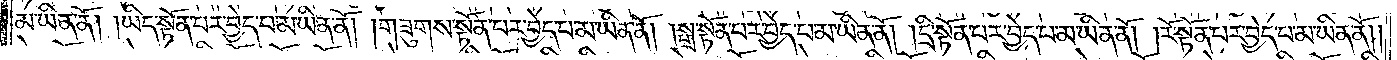མ་ཡིན་ནོ། །ཡིད་སྟོན་པར་བྱེད་པ་མ་ཡིན་ནོ། །གཟུགས་སྟོན་པར་བྱེད་པ་མ་ཡིན་ནོ། །སྒྲ་སྟོན་པར་བྱེད་པ་མ་ཡིན་ནོ། །དྲི་སྟོན་པར་བྱེད་པ་མ་ཡིན་ནོ། །རོ་སྟོན་པར་བྱེད་པ་མ་ཡིན་ནོ། །
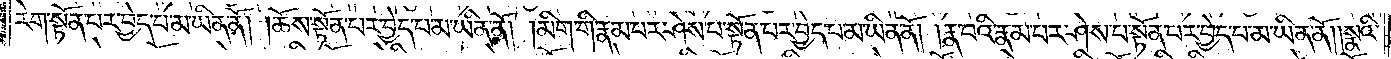རེག་སྟོན་པར་བྱེད་པ་མ་ཡིན་ནོ། །ཆོས་སྟོན་པར་བྱེད་པ་མ་ཡིན་ནོ། །མིག་གི་རྣམ་པར་ཤེས་པ་སྟོན་པར་བྱེད་པ་མ་ཡིན་ནོ། །རྣ་བའི་རྣམ་པར་ཤེས་པ་སྟོན་པར་བྱེད་པ་མ་ཡིན་ནོ། །སྣའི་
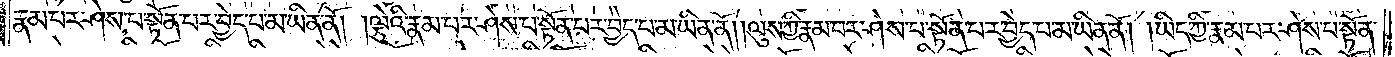རྣམ་པར་ཤེས་པ་སྟོན་པར་བྱེད་པ་མ་ཡིན་ནོ། །ལྕེའི་རྣམ་པར་ཤེས་པ་སྟོན་པར་བྱེད་པ་མ་ཡིན་ནོ། །ལུས་ཀྱི་རྣམ་པར་ཤེས་པ་སྟོན་པར་བྱེད་པ་མ་ཡིན་ནོ། ཡིད་ཀྱི་རྣམ་པར་ཤེས་པ་སྟོན་
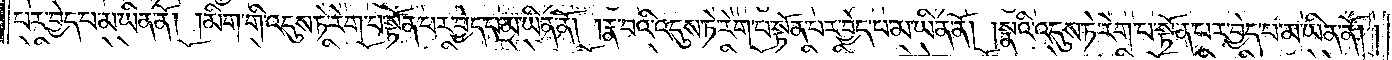པར་བྱེད་པ་མ་ཡིན་ནོ། །མིག་གི་འདུས་ཏེ་རེག་པ་སྟོན་པར་བྱེད་པ་མ་ཡིན་ནོ། །རྣ་བའི་འདུས་ཏེ་རེག་པ་སྟོན་པར་བྱེད་པ་མ་ཡིན་ནོ། །སྣའི་འདུས་ཏེ་རེག་པ་སྟོན་པར་བྱེད་པ་མ་ཡིན་ནོ། །
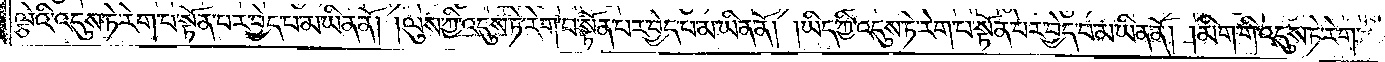ལྕེའི་འདུས་ཏེ་རེག་པ་སྟོན་པར་བྱེད་པ་མ་ཡིན་ནོ། །ལུས་ཀྱི་འདུས་ཏེ་རེག་པ་སྟོན་པར་བྱེད་པ་མ་ཡིན་ནོ། །ཡིད་ཀྱི་འདུས་ཏེ་རེག་པ་སྟོན་པར་བྱེད་པ་མ་ཡིན་ནོ། །མིག་གི་འདུས་ཏེ་རེག་
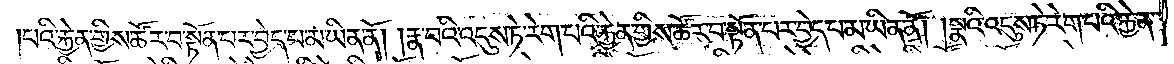པའི་རྐྱེན་གྱིས་ཚོར་བ་སྟོན་པར་བྱེད་པ་མ་ཡིན་ནོ། །རྣ་བའི་འདུས་ཏེ་རེག་པའི་རྐྱེན་གྱིས་ཚོར་བ་སྟོན་པར་བྱེད་པ་མ་ཡིན་ནོ། །སྣའི་འདུས་ཏེ་རེག་པའི་རྐྱེན་
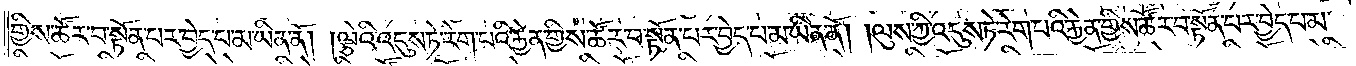གྱིས་ཚོར་བ་སྟོན་པར་བྱེད་པ་མ་ཡིན་ནོ། །ལྕེའི་འདུས་ཏེ་རེག་པའི་རྐྱེན་གྱིས་ཚོར་བ་སྟོན་པར་བྱེད་པ་མ་ཡིན་ནོ། །ལུས་ཀྱི་འདུས་ཏེ་རེག་པའི་རྐྱེན་གྱིས་ཚོར་བ་སྟོན་པར་བྱེད་པ་མ་
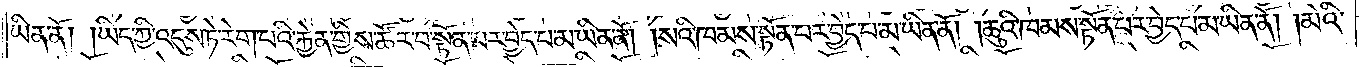ཡིན་ནོ། །ཡིད་ཀྱི་འདུས་ཏེ་རེག་པའི་རྐྱེན་གྱིས་ཚོར་བ་སྟོན་པར་བྱེད་པ་མ་ཡིན་ནོ། །སའི་ཁམས་སྟོན་པར་བྱེད་པ་མ་ཡིན་ནོ། །ཆུའི་ཁམས་སྟོན་པར་བྱེད་པ་མ་ཡིན་ནོ། །མེའི་
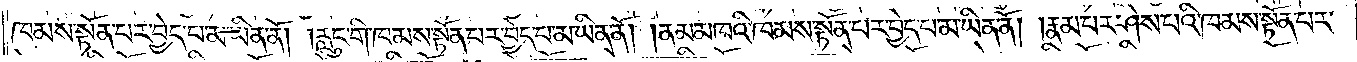ཁམས་སྟོན་པར་བྱེད་པ་མ་ཡིན་ནོ། །རླུང་གི་ཁམས་སྟོན་པར་བྱེད་པ་མ་ཡིན་ནོ། །ནམ་མཁའི་ཁམས་སྟོན་པར་བྱེད་པ་མ་ཡིན་ནོ། །རྣམ་པར་ཤེས་པའི་ཁམས་སྟོན་པར་
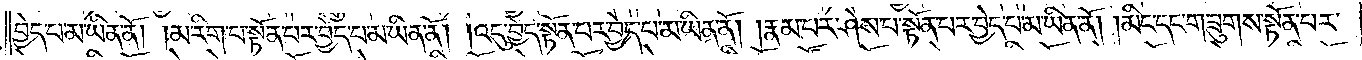བྱེད་པ་མ་ཡིན་ནོ། །མ་རིག་པ་སྟོན་པར་བྱེད་པ་མ་ཡིན་ནོ། །འདུ་བྱེད་སྟོན་པར་བྱེད་པ་མ་ཡིན་ནོ། །རྣམ་པར་ཤེས་པ་སྟོན་པར་བྱེད་པ་མ་ཡིན་ནོ། །མིང་དང་གཟུགས་སྟོན་པར་
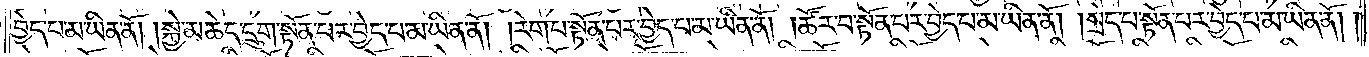བྱེད་པ་མ་ཡིན་ནོ། །སྐྱེ་མཆེད་དྲུག་སྟོན་པར་བྱེད་པ་མ་ཡིན་ནོ། །རེག་པ་སྟོན་པར་བྱེད་པ་མ་ཡིན་ནོ། །ཚོར་བ་སྟོན་པར་བྱེད་པ་མ་ཡིན་ནོ། །སྲེད་པ་སྟོན་པར་བྱེད་པ་མ་ཡིན་ནོ། །
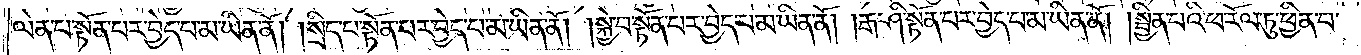ལེན་པ་སྟོན་པར་བྱེད་པ་མ་ཡིན་ནོ། །སྲིད་པ་སྟོན་པར་བྱེད་པ་མ་ཡིན་ནོ། །སྐྱེ་བ་སྟོན་པར་བྱེད་པ་མ་ཡིན་ནོ། །རྒ་ཤི་སྟོན་པར་བྱེད་པ་མ་ཡིན་ནོ། །སྦྱིན་པའི་ཕ་རོལ་ཏུ་ཕྱིན་པ་
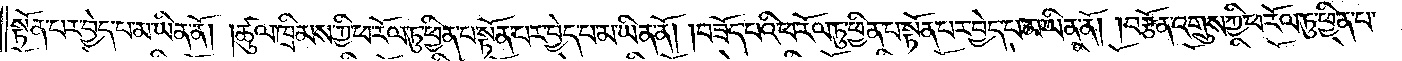སྟོན་པར་བྱེད་པ་མ་ཡིན་ནོ། །ཚུལ་ཁྲིམས་ཀྱི་ཕ་རོལ་ཏུ་ཕྱིན་པ་སྟོན་པར་བྱེད་པ་མ་ཡིན་ནོ། །བཟོད་པའི་ཕ་རོལ་ཏུ་ཕྱིན་པ་སྟོན་པར་བྱེད་པ་མ་ཡིན་ནོ། །བརྩོན་འགྲུས་ཀྱི་ཕ་རོལ་ཏུ་ཕྱིན་པ་
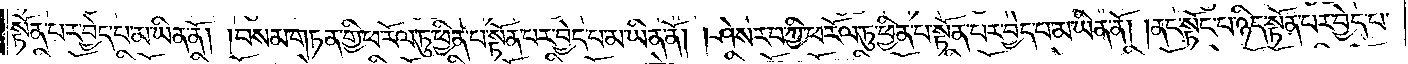སྟོན་པར་བྱེད་པ་མ་ཡིན་ནོ། །བསམ་གཏན་གྱི་ཕ་རོལ་ཏུ་ཕྱིན་པ་སྟོན་པར་བྱེད་པ་མ་ཡིན་ནོ། །ཤེས་རབ་ཀྱི་ཕ་རོལ་ཏུ་ཕྱིན་པ་སྟོན་པར་བྱེད་པ་མ་ཡིན་ནོ། །ནང་སྟོང་པ་ཉིད་སྟོན་པར་བྱེད་པ་
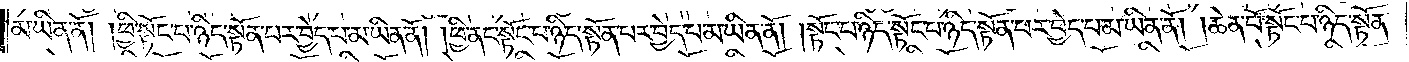མ་ཡིན་ནོ། །ཕྱི་སྟོང་པ་ཉིད་སྟོན་པར་བྱེད་པ་མ་ཡིན་ནོ། །ཕྱི་ནང་སྟོང་པ་ཉིད་སྟོན་པར་བྱེད་པ་མ་ཡིན་ནོ། །སྟོང་པ་ཉིད་སྟོང་པ་ཉིད་སྟོན་པར་བྱེད་པ་མ་ཡིན་ནོ། །ཆེན་པོ་སྟོང་པ་ཉིད་སྟོན་
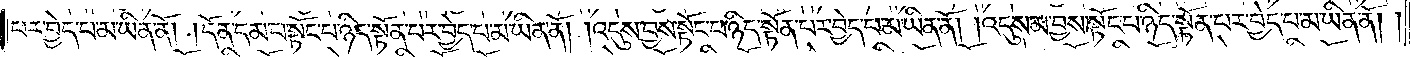པར་བྱེད་པ་མ་ཡིན་ནོ། །དོན་དམ་པ་སྟོང་པ་ཉིད་སྟོན་པར་བྱེད་པ་མ་ཡིན་ནོ། །འདུས་བྱས་སྟོང་པ་ཉིད་སྟོན་པར་བྱེད་པ་མ་ཡིན་ནོ། །འདུས་མ་བྱས་སྟོང་པར་ཉིད་སྟོན་པར་བྱེད་པ་མ་ཡིན་ནོ། །
